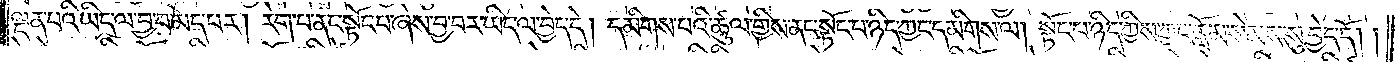ལྡན་པའི་ཡིད་ལ་བྱ་བ་མེད་པར། རེག་པ་ནང་སྟོང་པ་ཞེས་བྱ་བར་ཡིད་ལ་བྱེད་དེ། དམིགས་པའི་ཚུལ་གྱིས་ནང་སྟོང་པ་ཉིད་ཀྱང་དམིགས་ལ། སྟོང་པ་ཉིད་ཀྱིས་ཀྱང་རློམ་སེམས་སུ་བྱེད་དོ། །
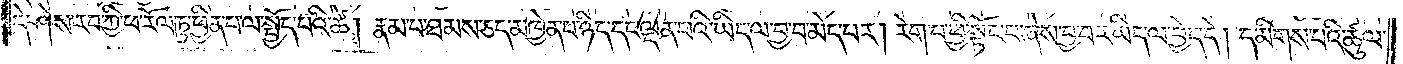དེ་ཤེས་རབ་ཀྱི་ཕ་རོལ་ཏུ་ཕྱིན་པ་ལ་སྤྱོད་པའི་ཚེ། རྣམ་པ་ཐམས་ཅད་མཁྱེན་པ་ཉིད་དང་ལྡན་པའི་ཡིད་ལ་བྱ་བ་མེད་པར། རེག་པ་ཕྱི་སྟོང་པ་ཞེས་བྱ་བར་ཡིད་ལ་བྱེད་དེ། དམིགས་པའི་ཚུལ་
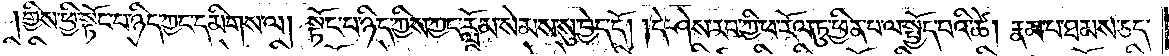གྱིས་ཕྱི་སྟོང་པ་ཉིད་ཀྱང་དམིགས་ལ། སྟོང་པ་ཉིད་ཀྱིས་ཀྱང་རློམ་སེམས་སུ་བྱེད་དོ། །དེ་ཤེས་རབ་ཀྱི་ཕ་རོལ་ཏུ་ཕྱིན་པ་ལ་སྤྱོད་པའི་ཚེ། རྣམ་པ་ཐམས་ཅད་
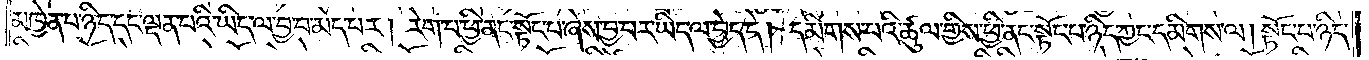མཁྱེན་པ་ཉིད་དང་ལྡན་པའི་ཡིད་ལ་བྱ་བ་མེད་པར། རེག་པ་ཕྱི་ནང་སྟོང་པ་ཞེས་བྱ་བར་ཡིད་ལ་བྱེད་དེ། དམིགས་པའི་ཚུལ་གྱིས་ཕྱི་ནང་སྟོང་པ་ཉིད་ཀྱང་དམིགས་ལ། སྟོང་པ་ཉིད་
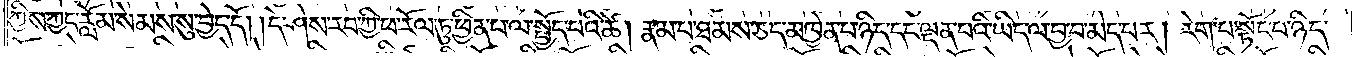ཀྱིས་ཀྱང་རློམ་སེམས་སུ་བྱེད་དོ། །དེ་ཤེས་རབ་ཀྱི་ཕ་རོལ་ཏུ་ཕྱིན་པ་ལ་སྤྱོད་པའི་ཚེ། རྣམ་པ་ཐམས་ཅད་མཁྱེན་པ་ཉིད་དང་ལྡན་པའི་ཡིད་ལ་བྱ་བ་མེད་པར། རེག་པ་སྟོང་པ་ཉིད་
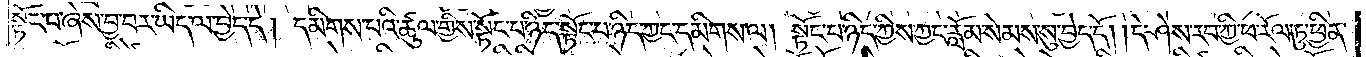སྟོང་པ་ཞེས་བྱ་བར་ཡིད་ལ་བྱེད་དེ། དམིགས་པའི་ཚུལ་གྱིས་སྟོང་པ་ཉིད་སྟོང་པ་ཉིད་ཀྱང་དམིགས་ལ། སྟོང་པ་ཉིད་ཀྱིས་ཀྱང་རློམ་སེམས་སུ་བྱེད་དོ། །དེ་ཤེས་རབ་ཀྱི་ཕ་རོལ་ཏུ་ཕྱིན་
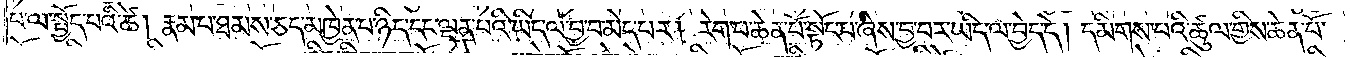པ་ལ་སྤྱོད་པའི་ཚེ། རྣམ་པ་ཐམས་ཅད་མཁྱེན་པ་ཉིད་དང་ལྡན་པའི་ཡིད་ལ་བྱ་བ་མེད་པར། རེག་པ་ཆེན་པོ་སྟོང་པ་ཞེས་བྱ་བར་ཡིད་ལ་བྱེད་དེ། དམིགས་པའི་ཚུལ་གྱིས་ཆེན་པོ་
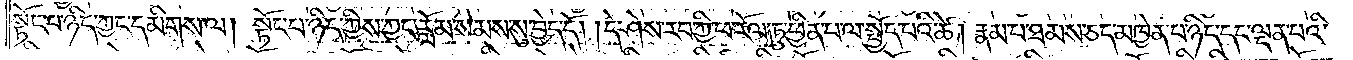སྟོང་པ་ཉིད་ཀྱང་དམིགས་ལ། སྟོང་པ་ཉིད་ཀྱིས་ཀྱང་རློམ་སེམས་སུ་བྱེད་དོ། །དེ་ཤེས་རབ་ཀྱི་ཕ་རོལ་ཏུ་ཕྱིན་པ་ལ་སྤྱོད་པའི་ཚེ། རྣམ་པ་ཐམས་ཅད་མཁྱེན་པ་ཉིད་དང་ལྡན་པའི་
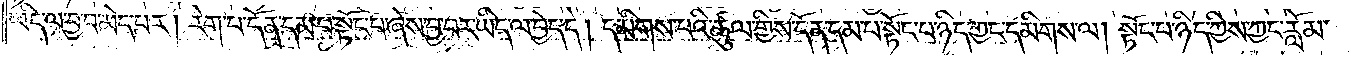ཡིད་ལ་བྱ་བ་མེད་པར། རེག་པ་དོན་དམ་པ་སྟོང་པ་ཞེས་བྱ་བར་ཡིད་ལ་བྱེད་དེ། དམིགས་པའི་ཚུལ་གྱིས་དོན་དམ་པ་སྟོང་པ་ཉིད་ཀྱང་དམིགས་ལ། སྟོང་པ་ཉིད་ཀྱིས་ཀྱང་རློམ་
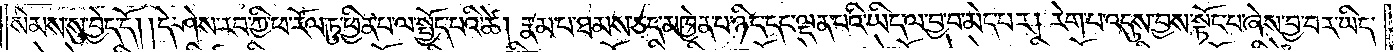སེམས་སུ་བྱེད་དོ། །དེ་ཤེས་རབ་ཀྱི་ཕ་རོལ་ཏུ་ཕྱིན་པ་ལ་སྤྱོད་པའི་ཚེ། རྣམ་པ་ཐམས་ཅད་མཁྱེན་པ་ཉིད་དང་ལྡན་པའི་ཡིད་ལ་བྱ་བ་མེད་པར། རེག་པ་འདུས་བྱས་སྟོང་པ་ཞེས་བྱ་བར་ཡིད་
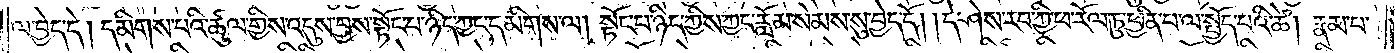ལ་བྱེད་དེ། དམིགས་པའི་ཚུལ་གྱིས་འདུས་བྱས་སྟོང་པ་ཉིད་ཀྱང་དམིགས་ལ། སྟོང་པ་ཉིད་ཀྱིས་ཀྱང་རློམ་སེམས་སུ་བྱེད་དོ། །དེ་ཤེས་རབ་ཀྱི་ཕ་རོལ་ཏུ་ཕྱིན་པ་ལ་སྤྱོད་པའི་ཚེ། རྣམ་པ་
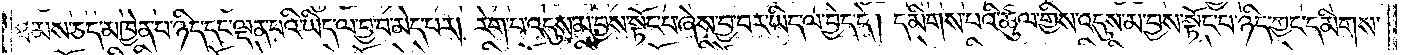ཐམས་ཅད་མཁྱེན་པ་ཉིད་དང་ལྡན་པའི་ཡིད་ལ་བྱ་བ་མེད་པར། རེག་པ་འདུས་མ་བྱས་སྟོང་པ་ཞེས་བྱ་བར་ཡིད་ལ་བྱེད་དེ། དམིགས་པའི་ཚུལ་གྱིས་འདུས་མ་བྱས་སྟོང་པ་ཉིད་ཀྱང་དམིགས་
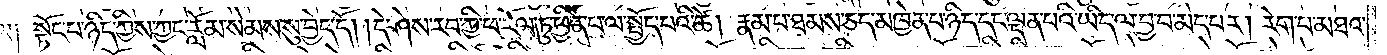ལ། སྟོང་པ་ཉིད་ཀྱིས་ཀྱང་རློམ་སེམས་སུ་བྱེད་དོ། །དེ་ཤེས་རབ་ཀྱི་ཕ་རོལ་ཏུ་ཕྱིན་པ་ལ་སྤྱོད་པའི་ཚེ། རྣམ་པ་ཐམས་ཅད་མཁྱེན་པ་ཉིད་དང་ལྡན་པའི་ཡིད་ལ་བྱ་བ་མེད་པར། རེག་པ་མཐའ་
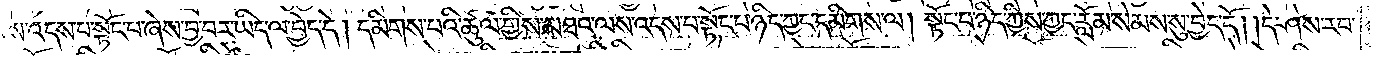ལས་འདས་པ་སྟོང་པ་ཞེས་བྱ་བར་ཡིད་ལ་བྱེད་དེ། དམིགས་པའི་ཚུལ་གྱིས་མཐའ་ལས་འདས་པ་སྟོང་པ་ཉིད་ཀྱང་དམིགས་ལ། སྟོང་པ་ཉིད་ཀྱིས་ཀྱང་རློམ་སེམས་སུ་བྱེད་དོ། །དེ་ཤེས་རབ་
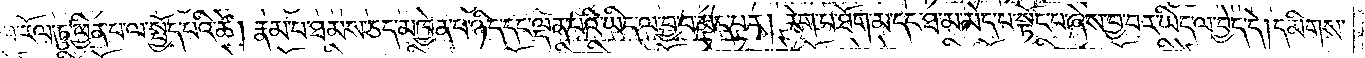ཀྱི་ཕ་རོལ་ཏུ་ཕྱིན་པ་ལ་སྤྱོད་པའི་ཚེ། རྣམ་པ་ཐམས་ཅད་མཁྱེན་པ་ཉིད་དང་ལྡན་པའི་ཡིད་ལ་བྱ་བ་མེད་པར། རེག་པ་ཐོག་མ་དང་ཐ་མ་མེད་པ་སྟོང་པ་ཞེས་བྱ་བར་ཡིད་ལ་བྱེད་དེ། དམིགས་
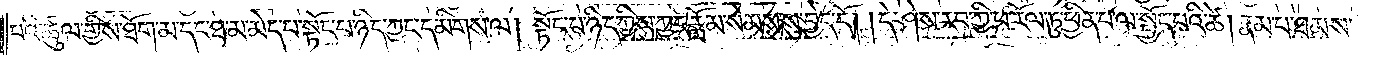པའི་ཚུལ་གྱིས་ཐོག་མ་དང་ཐ་མ་མེད་པ་སྟོང་པ་ཉིད་ཀྱང་དམིགས་ལ། སྟོང་པ་ཉིད་ཀྱིས་ཀྱང་རློམ་སེམས་སུ་བྱེད་དོ། །དེ་ཤེས་རབ་ཀྱི་ཕ་རོལ་ཏུ་ཕྱིན་པ་ལ་སྤྱོད་པའི་ཚེ། རྣམ་པ་ཐམས་
